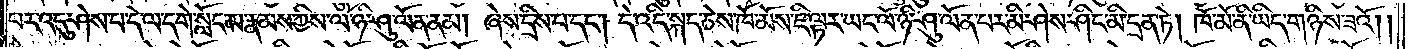པར་འདུ་ཤེས་པ་དེ་ལ་དགེ་སློང་མ་རྣམས་ཀྱིས་ལོ་ཉི་ཤུ་ལོན་ནམ། ཞེས་དྲིས་པ་དང༌། དེ་འདི་སྐད་ཅེས་ཁོ་མོས་ཇི་ལྟར་ཡང་ལོ་ཉི་ཤུ་ལོན་པར་མི་ཤེས་ཤིང་མི་དྲན་ཏེ། ཁོ་མོ་ནི་ཡིད་གཉིས་ཟའོ། །
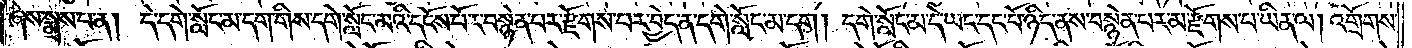ཞེས་སྨྲས་པ་ན། དེ་དགེ་སློང་མ་དག་གིས་དགེ་སློང་མའི་དངོས་པོར་བསྙེན་པར་རྫོགས་པར་བྱེད་ན་དགེ་སློང་མ་དག །དགེ་སློང་མ་དེ་ཡང་དང་པོ་ཉིད་ནས་བསྙེན་པར་མ་རྫོགས་པ་ཡིན་ལ། འགྲོགས་
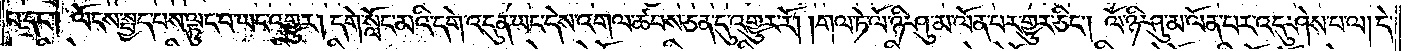པ་དང༌། ལོངས་སྤྱད་པས་ལྟུང་བ་ཡང་འགྱུར། དགེ་སློང་མའི་དགེ་འདུན་ཡང་དེས་འགལ་ཚབས་ཅན་དུ་འགྱུར་རོ། །གལ་ཏེ་ལོ་ཉི་ཤུ་མ་ལོན་པར་གྱུར་ཅིང༌། ལོ་ཉི་ཤུ་མ་ལོན་པར་འདུ་ཤེས་པ་ལ། དེ་
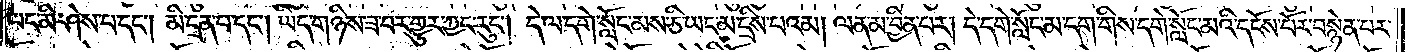ཡང་མི་ཤེས་པ་དང༌། མི་དྲན་པ་དང༌། ཡིད་གཉིས་ཟ་བར་གྱུར་ཀྱང་རུང༌། དེ་ལ་དགེ་སློང་མས་ཅི་ཡང་མ་དྲིས་པའམ། ལན་མ་བྱིན་པར། དེ་དགེ་སློང་མ་དག་གིས་དགེ་སློང་མའི་དངོས་པོར་བསྙེན་པར་
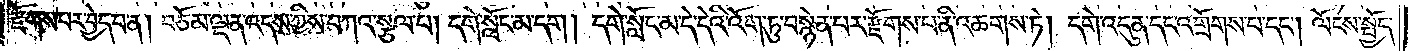རྫོགས་པར་བྱེད་པ་ན། བཅོམ་ལྡན་འདས་ཀྱིས་བཀའ་སྩལ་པ། དགེ་སློང་མ་དག །དགེ་སློང་མ་དེ་དེའི་འོག་ཏུ་བསྙེན་པར་རྫོགས་པ་ནི་འཆགས་ཏེ། དགེ་འདུན་དང་འགྲོགས་པ་དང༌། ལོངས་སྤྱོད་
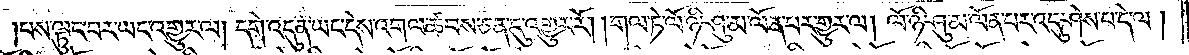པས་ལྟུང་བར་ཡང་འགྱུར་ལ། དགེ་འདུན་ཡང་དེས་འགལ་ཚབས་ཅན་དུ་འགྱུར་རོ། །གལ་ཏེ་ལོ་ཉི་ཤུ་མ་ལོན་པར་གྱུར་ལ། ལོ་ཉི་ཤུ་མ་ལོན་པར་འདུ་ཤེས་པ་དེ་ལ།
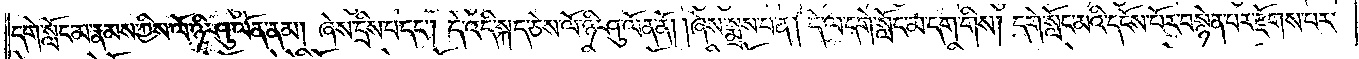དགེ་སློང་མ་རྣམས་ཀྱིས་ལོ་ཉི་ཤུ་ལོན་ནམ། ཞེས་དྲིས་པ་དང༌། དེ་འདི་སྐད་ཅེས་ལོ་ཉི་ཤུ་ལོན་ནོ། །ཞེས་སྨྲས་པ་ན། དེ་ལ་དགེ་སློང་མ་དག་གིས། དགེ་སློང་མའི་དངོས་པོར་བསྙེན་པར་རྫོགས་པར་
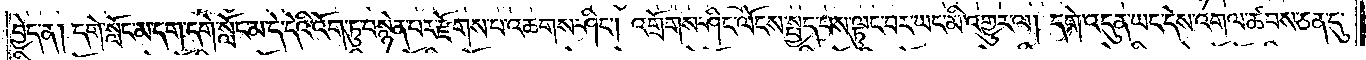བྱེད་ན། དགེ་སློང་མ་དག་དགེ་སློང་མ་དེ་དེའི་འོག་ཏུ་བསྙེན་པར་རྫོགས་པ་འཆགས་ཤིང༌། འགྲོགས་ཤིང་ལོངས་སྤྱད་པས་ལྟུང་བར་ཡང་མི་འགྱུར་ལ། དགེ་འདུན་ཡང་དེས་འགལ་ཚབས་ཅན་དུ་
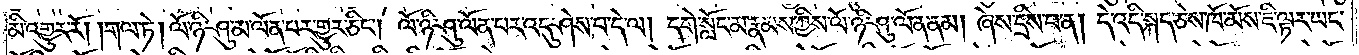མི་འགྱུར་རོ། །གལ་ཏེ། ལོ་ཉི་ཤུ་མ་ལོན་པར་གྱུར་ཅིང༌། ལོ་ཉི་ཤུ་ལོན་པར་འདུ་ཤེས་པ་དེ་ལ། དགེ་སློང་མ་རྣམས་ཀྱིས་ལོ་ཉི་ཤུ་ལོན་ནམ། ཞེས་དྲིས་པ་ན། དེ་འདི་སྐད་ཅེས་ཁོ་མོས་ཇི་ལྟར་ཡང་
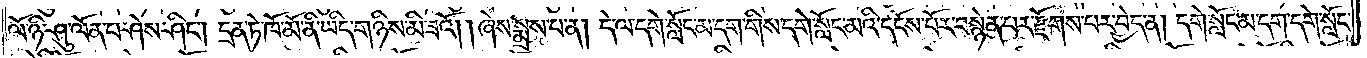ལོ་ཉི་ཤུ་ལོན་པ་ཤེས་ཤིང༌། དྲན་ཏེ་ཁོ་མོ་ནི་ཡིད་གཉིས་མི་ཟའོ། །ཞེས་སྨྲས་པ་ན། དེ་ལ་དགེ་སློང་མ་དག་གིས་དགེ་སློང་མའི་དངོས་པོར་བསྙེན་པར་རྫོགས་པར་བྱེད་ན། དགེ་སློང་མ་དག་དགེ་སློང་
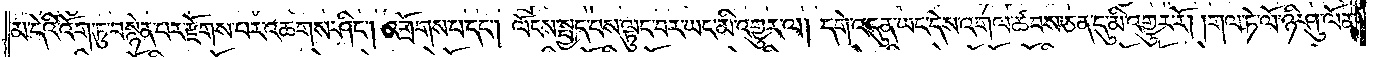མ་དེའི་འོག་ཏུ་བསྙེན་པར་རྫོགས་པར་འཆགས་ཤིང༌། འགྲོགས་པ་དང༌། ལོངས་སྤྱད་པས་ལྟུང་བར་ཡང་མི་འགྱུར་ལ། དགེ་འདུན་ཡང་དེས་འགལ་ཚབས་ཅན་དུ་མི་འགྱུར་རོ། །གལ་ཏེ་ལོ་ཉི་ཤུ་ལོན་
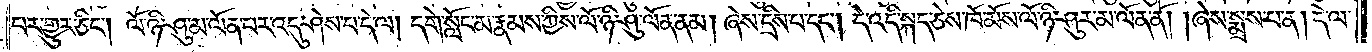པར་གྱུར་ཅིང༌། ལོ་ཉི་ཤུ་མ་ལོན་པར་འདུ་ཤེས་པ་དེ་ལ། དགེ་སློང་མ་རྣམས་ཀྱིས་ལོ་ཉི་ཤུ་ལོན་ནམ། ཞེས་དྲིས་པ་དང༌། དེ་འདི་སྐད་ཅེས་ཁོ་མོས་ལོ་ཉི་ཤུར་མ་ལོན་ནོ། །ཞེས་སྨྲས་པ་ན། དེ་ལ་
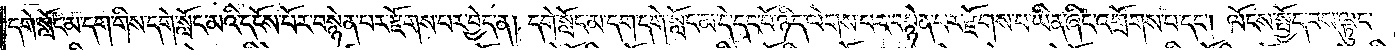དགེ་སློང་མ་དག་གིས་དགེ་སློང་མའི་དངོས་པོར་བསྙེན་པར་རྫོགས་པར་བྱེད་ན། དགེ་སློང་མ་དག་དགེ་སློང་མ་དེ་དང་པོ་ཉིད་ལེགས་པར་བསྙེན་པར་རྫོགས་པ་ཡིན་ཞིང་འགྲོགས་པ་དང༌། ལོངས་སྤྱོད་པས་ལྟུང་
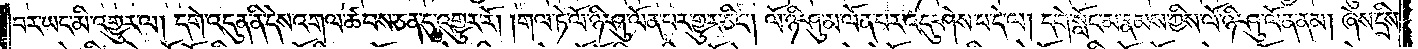བར་ཡང་མི་འགྱུར་ལ། དགེ་འདུན་ནི་དེས་འགལ་ཚབས་ཅན་དུ་འགྱུར་རོ། །གལ་ཏེ་ལོ་ཉི་ཤུ་ལོན་པར་གྱུར་ཅིང༌། ལོ་ཉི་ཤུ་མ་ལོན་པར་འདུ་ཤེས་པ་དེ་ལ། དགེ་སློང་མ་རྣམས་ཀྱིས་ལོ་ཉི་ཤུ་ལོན་ནམ། ཞེས་དྲིས་
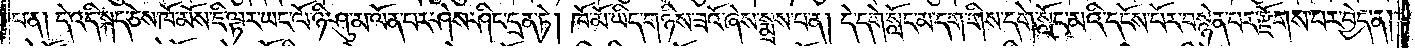པ་ན། དེ་འདི་སྐད་ཅེས་ཁོ་མོས་ཇི་ལྟར་ཡང་ལོ་ཉི་ཤུ་མ་ལོན་པར་ཤེས་ཤིང་དྲན་ཏེ། ཁོ་མོ་ཡིད་གཉིས་ཟའོ་ཞེས་སྨྲས་པ་ན། དེ་དགེ་སློང་མ་དག་གིས་དགེ་སློང་མའི་དངོས་པོར་བསྙེན་པར་རྫོགས་པར་བྱེད་ན།
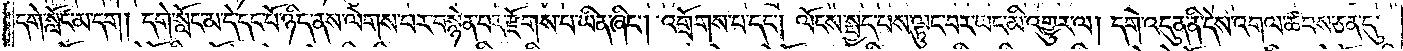དགེ་སློང་མ་དག །དགེ་སློང་མ་དེ་དང་པོ་ཉིད་ནས་ལེགས་པར་བསྙེན་པར་རྫོགས་པ་ཡིན་ཞིང༌། འགྲོགས་པ་དང༌། ལོངས་སྤྱད་པས་ལྟུང་བར་ཡང་མི་འགྱུར་ལ། དགེ་འདུན་ནི་དེས་འགལ་ཚབས་ཅན་དུ་
